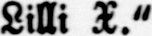Lilli X."
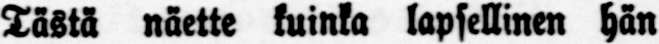Tästä näette kuinka lapsellinen hän
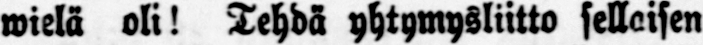wielä oli! Tehdä yhtymysliitto sellaisen
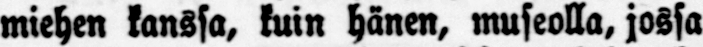miehen kanssa, kuin hänen, museolla, jossa
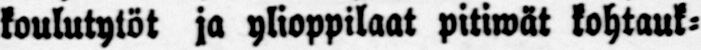koulutytöt ja ylioppilaat pitiwät kohtauk-
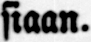siaan.
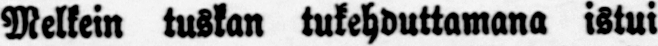Melkein tuskan tukehduttamana istui
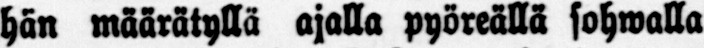hän määrätyllä ajalla pyöreällä sohwalla
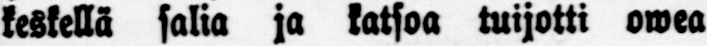keskellä salia ja katsoa tuijotti owea
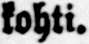kohti.
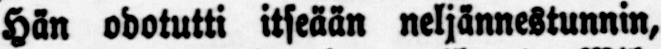Hän odotutti itseään neljännestunnin,
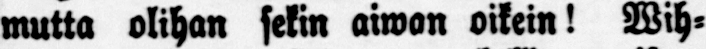mutta olihan sekin aiwan oikein! Wih-
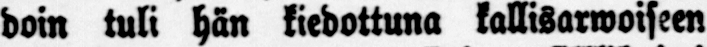doin tuli hän kiedottuna kallisarwoiseen
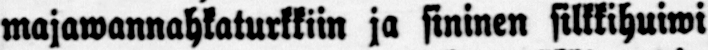majawannahkaturkkiin ja sininen silkkihuiwi
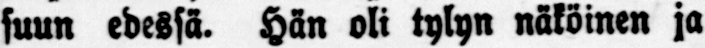suun edessä. Hän oli tylyn näköinen ja
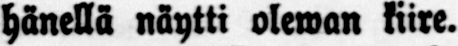hänellä näytti olewan kiire.
